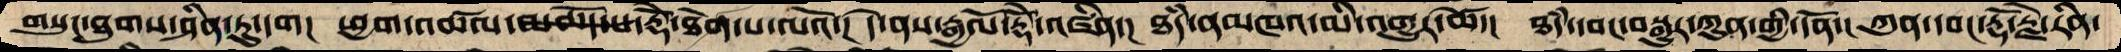གསུང་ཐུགས་ཤིན་ཏུ་དག།  ཕྱག་འཚལ་མཆོད་པ་རྡོེ་ཐེག་པ་ལའོ་།  དེ་ནས་རྒྱལོ་རྡོེ་འཛིན་།  ཐདཾ་ནམཁའ་མི་འགྱུར་ཚེ་།   ཐདཾ་དབང་བསྒྱུར་ཀུན་གྱི་དོན་།  ཀུན་དབང་རྡོ་རྗེ་རིན་
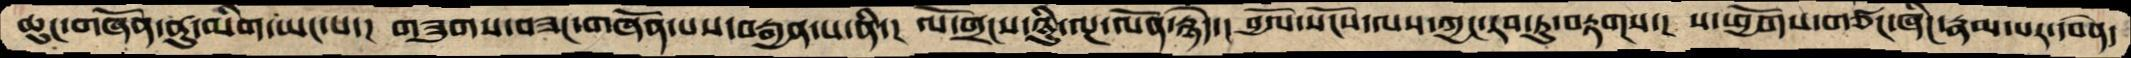ཆུང་གཞོན་ནུ་མིག་ཡང་པ་།  གཟུགས་བཟང་གཞོན་པས་བརྒྱན་པ་ནི་།  ལོ་གྲངས་ཉིུ་ལྔ་ལོན་རྙེད་།  བྱོལ་སོངས་ལས་ཀྱང་རབ་ཏུ་བརྟགས་།  ས་ཕྱོགས་གཙང་ཞིང་རྣམ་པར་དབེན་
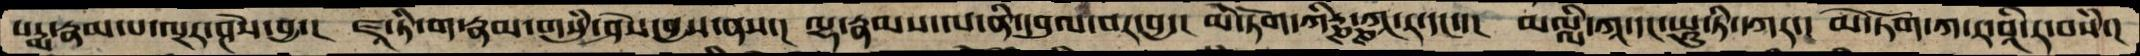པདྨ་རྣམ་པ་ལྔར་ཤེས་བྱ་།  ཛཱ་ཏི་ག་རྣམ་གསུཾ་ཤེས་བྱས་ནས་། ལྷ་རྣམས་ལ་ནི་དབུལ་བར་བྱ་། མེ་ཏོག་ཀིརྞྞ་ཀཱ་ར་དང་་།  མལླི་ཀཱ་དང་ཡཱུ་ཏི་དཀར་། མེ་ཏོག་ཀ་ར་བཱི་ར་བསཾ་།
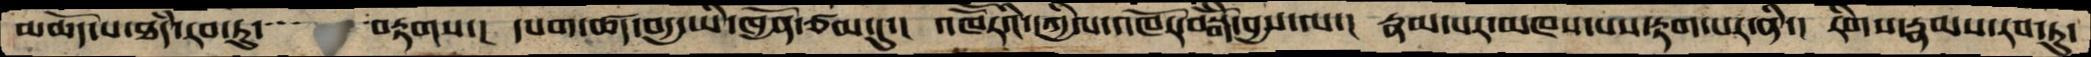མཆོད་པ་ཐཾད་རབ་ཏུ་་་་་་བརྟགས་། དཔག་ཚད་བདྱ་ཡི་ཁྱོན་ཙམ་དུ་།  འཁཽརའི་དཀྱིལ་འཁོར་བསྒོཾ་བྱས་ལ་། རྣམ་པར་མཁས་པས་རྟག་པར་ནི་།  རིགས་རྣམས་རབ་ཏུ་
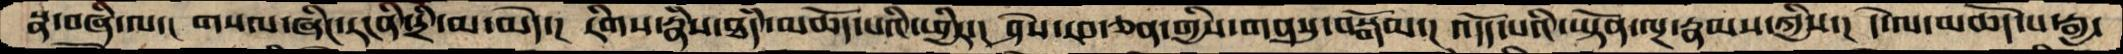སྣ་བཞི་ལས་། གསལ་ཞིང་རངིན་དྲི་མ་མེད་། རིགས་རྣཾས་ཐཾད་མཆོད་པའི་ཕྱིར་། ཤེས་རབ་ཅན་གྱིས་གནསུ་བསྒོོམ་། འདོད་པའི་ཡྟོན་ལྔ་རྣམས་ཀྱིས་། དེ་ལ་མཆོད་པ་རྒྱ་
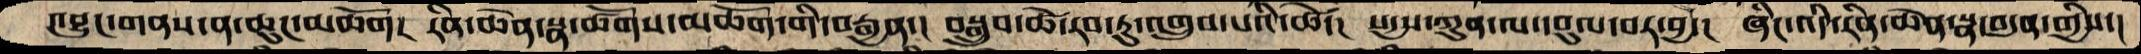འབྱུང་གནས་ན་ཆུང་མཆོག།  རིན་ཆེན་སྣ་ཚོགས་མཆོག་གི་བརྒྱན་།  བསྒྲུབ་ཚེ་རབ་ཏུ་འགྲུབ་པའི་ཚེ་།  སདྱས་ཀུན་ལ་དབུལ་བར་བྱ་།  ཞིང་འདི་རིན་ཆེན་སྣ་བདུན་གྱིས་།
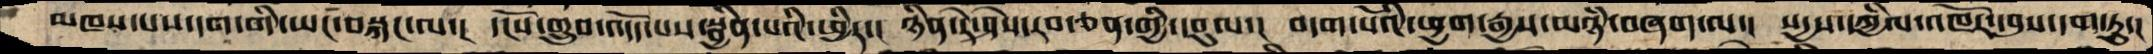མཁས་པས་དག་གི་ཡང་བསྐང་ལ་།  དངོས་གྲུབ་འདོད་པས་སྦྱིན་པའི་ཕྱིར་།  ཉིན་རེ་ཤེས་རབ་ཅན་གྱི་དབུལ་།  བདག་པོའི་ཕྱག་རྒྱས་མཉཾ་བཞག་ལ་།  སདྱས་དཀྱིལ་འཁོར་དབུས་དག་ཏུ་།
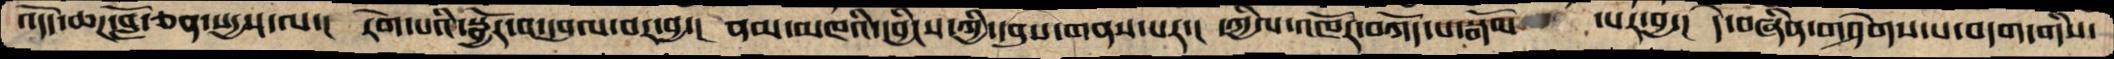འདོད་ཆཌ་བློ་ཅན་སདྱས་ལ་།  རེག་པའི་སྦྱོར་བ་དབུལ་བར་བྱ་།  ནམ་མཁའི་དབྱིངས་ཀྱི་དབུས་གནས་པར་།  དཀྱིལ་འཁོར་བཀོད་པ་སྒོམ་   པར་བྱ་།   དེ་བཞིན་གཤེགས་པ་བདག་གིས་
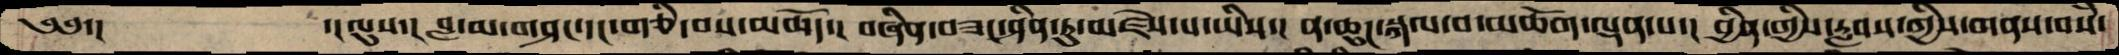༄༅་།      ་།ལུས་།  བླ་མ་གཤང་དང་གཅི་བས་མཆོད་།  བཞིན་བཟང་ཤིན་ཏུ་མཛེས་པ་ཡིས་།  ན་ཆུང་སྐལ་བ་མཆོག་ལྡན་པ་།  བྱིན་གྱིས་རླབས་ཀྱིས་གནས་བསཾ་
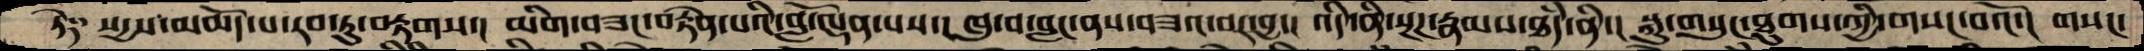ཏེ༑   སདྱས་མཆོད་པ་རབ་ཏུ་བརྟགས་།  མིག་བཟང་བརྟེན་པའི་བློ་ལྡན་པས་།  ཁུ་བ་བླང་ནས་བཟའ་བར་བྱ་།  འདི་ནི་སྔཌ་རྣམས་ཐཾད་ནི་།  སྐུ་གསུང་ཐུགས་ཀྱི་གསང་བའོ་།  གསང་
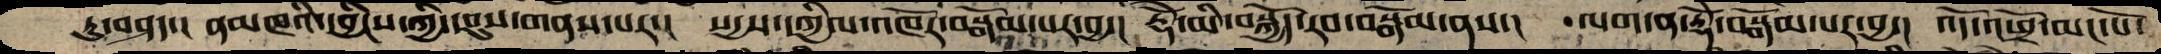ཏུ་བཤད་།  ནམ་མཁའི་དབྱིངས་ཀྱི་དབུས་གནས་པར་།  སདྱས་དཀྱིལ་འཁོར་བསྒོམ་པར་བྱ་།  རྡོེ་མི་བསྐྱོད་རབ་བསྒོམ་ནས་།  ལག་ན་རྡོེ་བསྒོམ་པར་བྱ་།  འོད་འཕྲོ་མང་པོ་
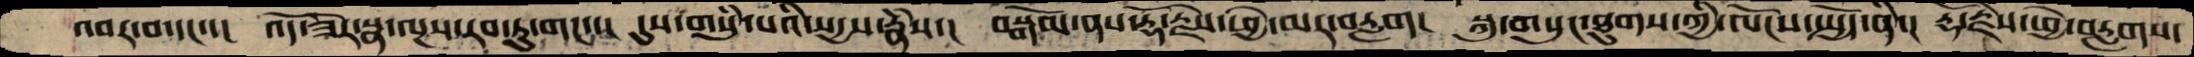འབར་བ་དང་་།  འོད་ཟེར་སྣ་ལྔ་རབ་ཏུ་གང་་།  དུས་གསུཾ་པའི་སདྱས་རྣཾས་།  བསྒོམ་ནས་རྡོ་རྗེ་ཕྱེ་མར་བརླག།  སྐུ་གསུང་ཐུགས་ཀྱི་ལོངས་སྤྱོད་ནི་།  རྡོ་རྗེ་ཕྱེ་བརླགས་
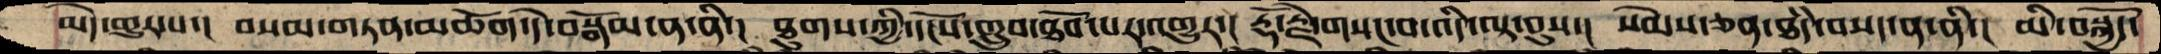མེད་གྱུར་པ་།  བསམ་གཏན་མཆོག་དེ་བསྒོམ་ན་ནི་།  ཐུགས་ཀྱི་དངོས་གྲུབ་ཐོབ་པར་འགྱུར་།  རྡོ་རྗེ་གསང་བ་འདི་ལྟ་བུས་།  སེམས་ཅན་ཐཾད་བསད་ན་ནི་།  མི་བསྐྱོད་
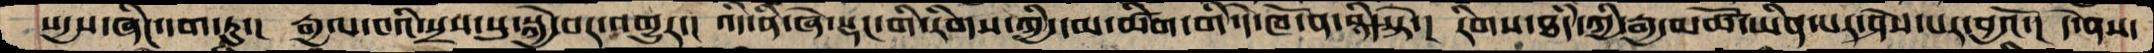སདྱས་ཞིང་དག་ཏུ་།  རྒྱལ་བའི་སྲས་སུ་སྐྱེ་བར་འགྱུར་།  འདི་ནི་ཞེ་སྡང་གི་རིགས་ཀྱི་དམ་ཚིག་གི་དེ་ཁོ་ན་ཉིད་སྟེ་།  རིགས་ཐཾད་ཀྱི་རྒྱ་མཚོ་ཡིན་པར་ཤེས་པར་བྱའོ་།  དེ་ནས་
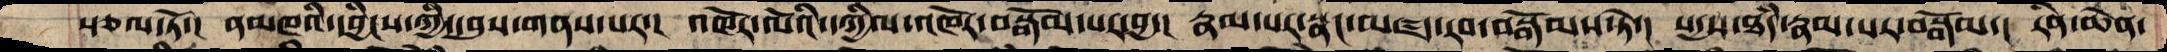སྩལ་ཏོ་།  ནམཁའི་དབྱིངས་ཀྱི་དབུས་གནས་པར་།  འཁོར་ལོའི་དཀྱིལ་འཁོར་བསྒོམ་པར་བྱ་།  རྣམ་པར་སྣང་མཛད་རབ་བསྒོམས་ཏེ་།  སདྱས་ཐཾད་རྣམ་པར་བསྒོམ་།  རིན་ཆེན་
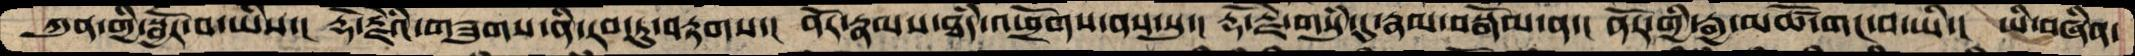ཀུན་གྱི་སྦྱོར་བ་ཡིས་།  རྡོ་རྗེའི་གཟུགས་ནི་རབ་ཏུ་བརྟགས་།  ནོར་རྣམས་ཐཾད་འཕྲོགས་ནས་སུ་།  རྡོ་རྗེ་གསུཾ་དུ་རྣམ་བསྒོམ་ན་།  ནོར་གྱི་རྒྱ་མཚོ་གང་བ་ཡི་།  ཡི་བཞིན་
